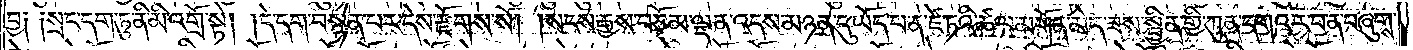བྱ༑ ༑སྲང་དག་ཏུ་ནི་མི་འགྲོ་སྟེ། །དེ་དག་བསྙེན་པར་དེས་རྫོགས་སོ།    །སངས་རྒྱས་བཅོམ་ལྡན་འདས་མཉན་དུ་ཡོད་པ་ན་ཛེ་ཏའི་ཚལ་མགོན་མེད་ཟས་སྦྱིན་གྱི་ཀུན་དགའ་ར་བ་ན་བཞུགས་
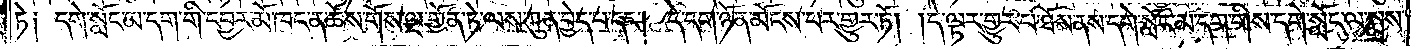ཏེ༑ དགེ་སློང་མ་དག་གི་དབྱར་མོ་ཁང་ན་ཆོས་གོས་ལྔ་གྱོན་ཏེ་ལས་ཀུན་བྱེད་པ་དང༌། དེ་དག་ཉོན་མོངས་པར་གྱུར་ཏོ། །དེ་ལྟར་གྱུར་པ་ཐོས་ནས་དགེ་སློང་མ་དག་གིས་དགེ་སློང་ལ་སྨྲས་
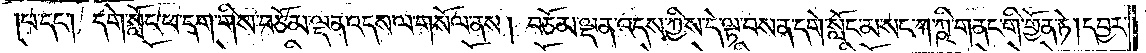པ་དང༌། དགེ་སློང་ཕ་དག་གིས་བཅོམ་ལྡན་འདས་ལ་གསོལ་ནས། བཅོམ་ལྡན་འདས་ཀྱིས་དེ་ལྟ་བས་ན་དགེ་སློང་མ་སང་ཀ་ཀྵི་གནང་གི་གྱོན་ཏེ། དབྱར་
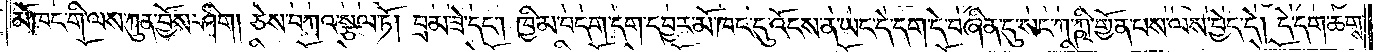མོ་ཁང་གི་ལས་ཀུན་བྱོས་ཤིག། ཅེས་བཀའ་སྩལ་ཏོ། བྲམ་ཟེ་དང༌། ཁྱིམ་བདག་དག་དབྱར་མོ་ཁང་དུ་འོངས་ན་ཡང་དེ་དག་དེ་བཞིན་དུ་སང་ཀ་ཀྵི་གྱོན་པས་ལས་བྱེད་དེ། དེ་དག་ཆགས་
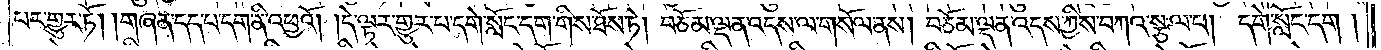པར་གྱུར་ཏོ། །གཞན་དད་པ་དག་ནི་འཕྱའོ། །དེ་ལྟར་གྱུར་པ་དགེ་སློང་དག་གིས་ཐོས་ཏེ། བཅོམ་ལྡན་འདས་ལ་གསོལ་ནས། བཅོམ་ལྡན་འདས་ཀྱིས་བཀའ་སྩལ་པ། དགེ་སློང་དག །
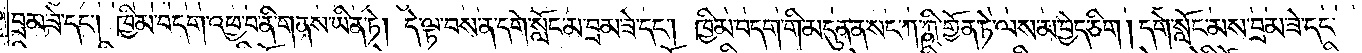བྲམ་ཟེ་དང༌། ཁྱིམ་བདག་འཕྱ་བ་ནི་གནས་ཡིན་ཏེ། དེ་ལྟ་བས་ན་དགེ་སློང་མ་བྲམ་ཟེ་དང༌། ཁྱིམ་བདག་གི་མདུན་ན་སང་ཀ་ཀྵི་གྱོན་ཏེ་ལས་མ་བྱེད་ཅིག །དགེ་སློང་མས་བྲམ་ཟེ་དང་
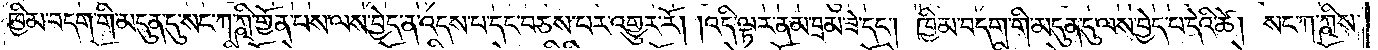ཁྱིམ་བདག་གི་མདུན་དུ་སང་ཀ་ཀྵི་གྱོན་པས་ལས་བྱེད་ན་འདས་པ་དང་བཅས་པར་འགྱུར་རོ། །འདི་ལྟར་ནམ་བྲམ་ཟེ་དང༌། ཁྱིམ་བདག་གི་མདུན་དུ་ལས་བྱེད་པ་དེའི་ཚེ། སང་ཀ་ཀྵི་ས་
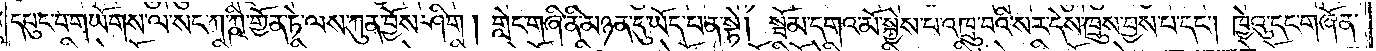དཔུང་པ་གཡོགས་ལ་སང་ཀ་ཀྵི་གྱོན་ཏེ་ལས་ཀུན་བྱོས་ཤིག །གླེང་གཞི་ནི་མཉན་དུ་ཡོད་པ་ན་སྟེ། སྦོམ་དགའ་མོ་སྐྱེས་པ་འཁྲུ་བའི་སར་དེས་ཁྲུས་བྱས་པ་དང༌། ཁྱེའུ་དང་གཞོན་
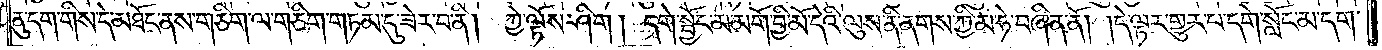ནུ་དག་གིས་དེ་མཐོང་ནས་གཅིག་ལ་གཅིག་གཏམ་དུ་ཟེར་བ་ནི། ཀྱེ་ལྟོས་ཤིག །དགེ་སྦྱོང་མ་མགོ་བྱི་མོ་དེའི་ལུས་ནི་ནགས་ཀྱི་མ་ཧེ་བཞིན་ནོ། །དེ་ལྟར་གྱུར་པ་དགེ་སློང་མ་དག་
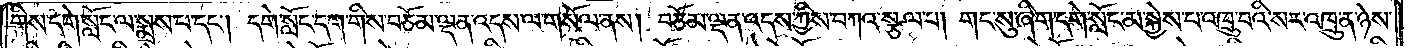གིས་དགེ་སློང་ལ་སྨྲས་པ་དང༌། དགེ་སློང་དག་གིས་བཅོམ་ལྡན་འདས་ལ་གསོལ་ནས། བཅོམ་ལྡན་འདས་ཀྱིས་བཀའ་སྩལ་པ། གང་སུ་ཞིག་དགེ་སློང་མ་སྐྱེས་པ་འཁྲུ་བའི་སར་འཁྲུ་ན་ཉེས་
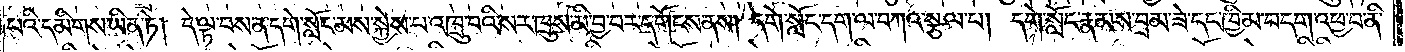པའི་དམིགས་ཡིན་ཏེ། དེ་ལྟ་བས་ན་དགེ་སློང་མས་སྐྱེས་པ་འཁྲུ་བའི་སར་ཁྲུས་མི་བྱ་བར་དགོངས་ནས། དགེ་སློང་དག་ལ་བཀའ་སྩལ་པ། དགེ་སློང་རྣམས་བྲམ་ཟེ་དང་ཁྱིམ་བདག་འཕྱ་བ་ནི་
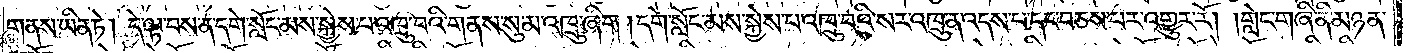གནས་ཡིན་ཏེ། དེ་ལྟ་བས་ན་དགེ་སློང་མས་སྐྱེས་པ་འཁྲུ་བའི་གནས་སུ་མ་འཁྲུ་ཞིག །དགེ་སློང་མས་སྐྱེས་པ་འཁྲུ་བའི་སར་འཁྲུ་ན་འདས་པ་དང་བཅས་པར་འགྱུར་རོ། །གླེང་གཞི་ནི་མཉན་
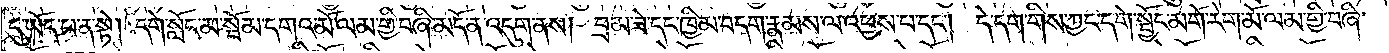དུ་ཡོད་པ་ན་སྟེ། དགེ་སློང་མ་སྦོམ་དགའ་མོ་ལམ་གྱི་བཞི་མདོ་ན་འདུག་ནས། བྲམ་ཟེ་དང་ཁྱིམ་བདག་རྣམས་ལ་འཕྱས་པ་དང༌། དེ་དག་གིས་ཀྱང་དགེ་སྦྱོང་མགོ་རེག་མོ་ལམ་གྱི་བཞི་
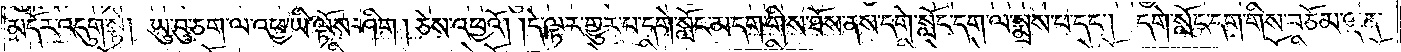མདོར་འདུག་སྟེ། ཡུ་བུ་ཅག་ལ་འཕྱ་ཡི་ལྟོས་ཤིག །ཅེས་འཕྱའོ། །དེ་ལྟར་གྱུར་པ་དགེ་སློང་མ་དག་གིས་ཐོས་ནས་དགེ་སློང་དག་ལ་སྨྲས་པ་དང༌། དགེ་སློང་དག་གིས་བཅོམ་ལྡན་
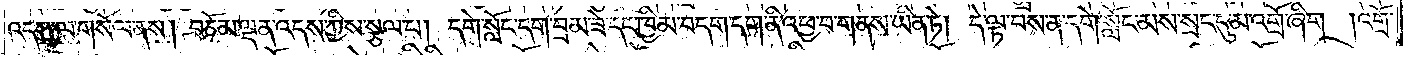འདས་ལ་གསོལ་ནས། བཅོམ་ལྡན་འདས་ཀྱིས་སྩལ་པ། དགེ་སློང་དག་བྲམ་ཟེ་དང་ཁྱིམ་བདག་དག་ནི་འཕྱ་བ་གནས་ཡིན་ཏེ། དེ་ལྟ་བས་ན་དགེ་སློང་མས་སྲང་དུ་མ་འགྲོ་ཞིག །འགྲོ་
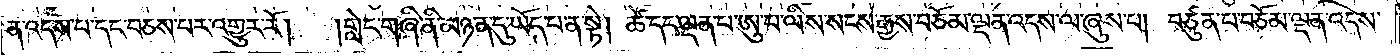ན་འདས་པ་དང་བཅས་པར་འགྱུར་རོ། །གླེང་གཞི་ནི་མཉན་དུ་ཡོད་པ་ན་སྟེ། ཚེ་དང་ལྡན་པ་ཨུ་པ་ལིས་སངས་རྒྱས་བཅོམ་ལྡན་འདས་ལ་ཞུས་པ། བཙུན་པ་བཅོམ་ལྡན་འདས་
